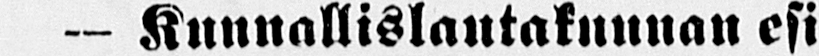— Kunnallislautakunnan esi-
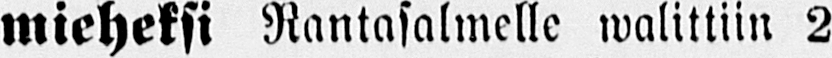mieheksi Rantasalmelle walittiin 2
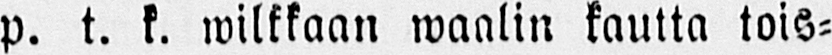p. t. k. wilkkaan waalin kautta tois-
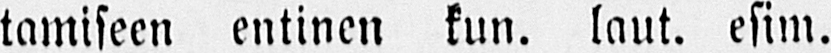tamiseen entinen kun. laut. esim.
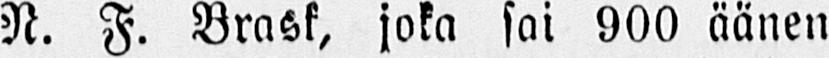N. F. Brask, joka sai 900 äänen
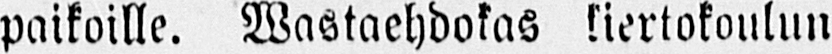paikoille. Wastaehdokas kiertokoulun
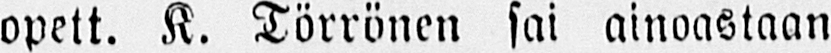opett. K. Törrönen sai ainoastaan
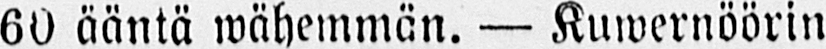60 ääntä wähemmän. — Kuwernöörin
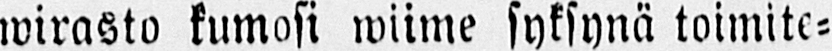wirasto kumosi wiime syksynä toimite-
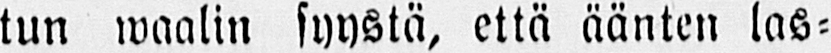tun waalin syystä, että äänten las-
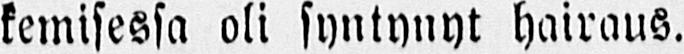kemisessa oli syntynyt hairaus.
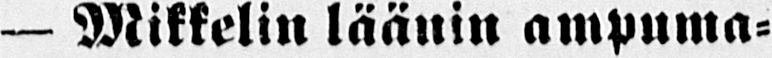— Mikkelin läänin ampuma-
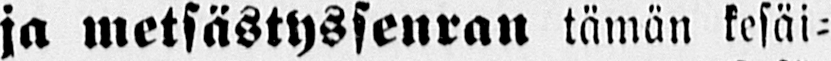ja metsästyssenran tämän kesäi-
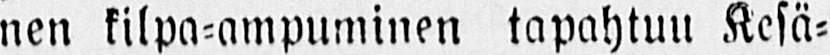nen kilpa-ampuminen tapahtuu Kesä-
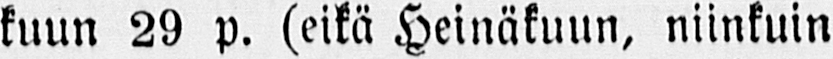kuun 29 p. (eikä Heinäkuun, niinkuin
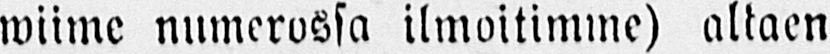wiime numerossa ilmoitimme) alkaen
